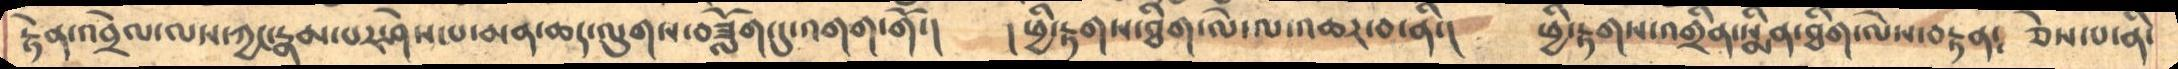རྟེན་འབྲེལ་ལས་ཀྱང་རྣམ་པར་ཤེས་པ་མན་ཆད་ལུགས་བཟློག་དུ་འགག་གོ་།    །ཕྱི་རྟགས་ཐིག་ལེ་ལ་འཆར་བ་ནི་།   ཕྱི་རྟགས་འགྲིན་སྨིན་ཐིག་ལེས་བརྟན༴   ཅེས་པ་ནི་
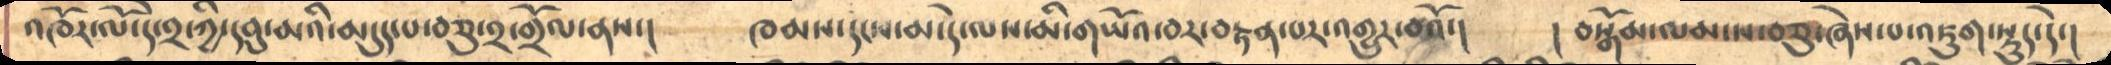འཁོར་ལོ་དེ་༢་ཀྱི་དབུ་མའི་མདུད་པ་བཅུ་༢་གྲོལ་ནས་།     ཁམས་དངས་མ་དེ་ལས་མི་གཡོའ་བར་བརྟན་པར་འགྱུར་བའོ་།    ། བསྒོམ་ལམ་ས་བཅུ་ཞེས་པ་འཇུག་སྡུད་དེ་།
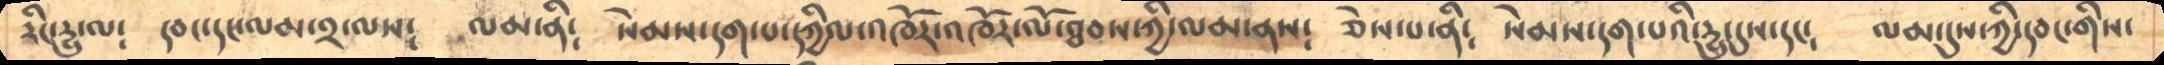རིང་དྱུ་ལ༴   དབང་དང་ལམ་༢་ལས༴   ལམ་ནི༴   སེམས་དག་པ་དཀྱིལ་འཁོར་འཁོར་ལོ་ཐབས་ཀྱི་ལམ་ནས༴   ཅེས་པ་ནི༴   སེམས་དག་པའི་དྱུ་དུས་དང༴    ལམ་དུས་ཀྱི་དབང་གིས་
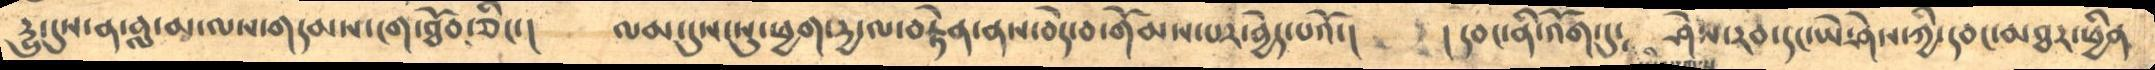དྱུ་དུས་ན་བླ་མ་ལས་གདམས་ངག་ཐོབ་ཅིང་།    ལམ་དུས་སུ་ཕྱག་དྱ་ལ་བརྟེན་ནས་བདེ་བ་གོམས་པར་བྱེད་པའོ་།    ། དབང་ནི་འོག་དུ༴   ཤེས་རབ་དང་ཡེ་ཤེས་ཀྱི་དབང་མཐར་ཕྱིན
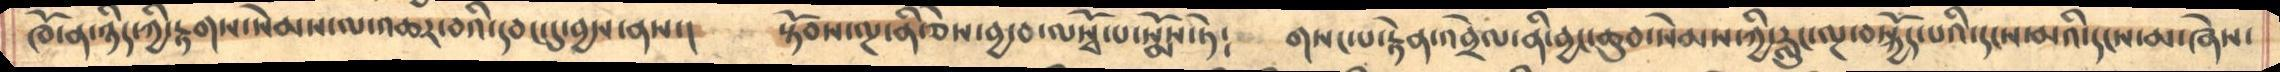ཁོ་ན་ཉིད་ཀྱི་རྟགས་སེམས་ལ་འཆར་བའི་དབང་དུ་བྱས་ནས་།    སྟོབས་ལྔ་ནི་ཅེས་བྱ་བ་ལསྭོ་པ་སྨོས་ཏེ༴   གསང་པ་རྟེན་འབྲེལ་ནི་བྱང་ཆུབ་སེམས་ཀྱི་རླུང་ལྔ་བསྐྱོད་པའི་དངས་མའི་དངས་མ་ཞེས་
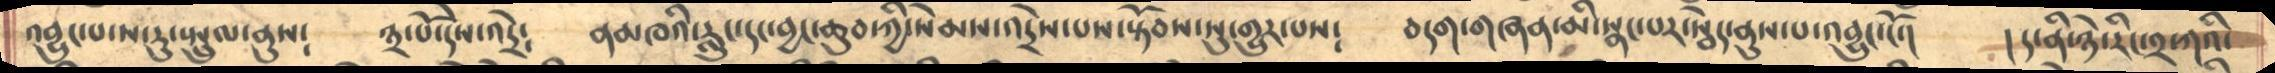འབྱུང་པ་ས་རུ་སྤྲུལ་ནུས༴    ༣་པོ་དེས་འདྲེ༴    ནམཁའི་རླུང་དང་བྱང་ཆུབ་ཀྱི་སེམས་འདྲེས་པས་སྟོབས་སུ་གྱུར་པས༴   བདག་གཞན་མི་སྣང་པར་སྦེད་ནུས་པ་འབྱུང་ངོ་།   །ད་ནི་ཉེ་རིང་༢་ཀའི་
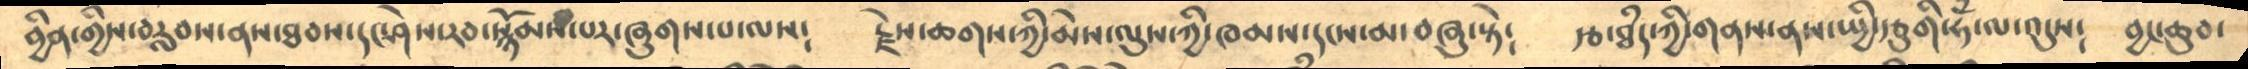བྱིན་གྱིས་བརླབས་ནས་ཐབས་དང་ཤེས་རབ་སྙོམས་པར་ཞུགས་པ་ལས༴  རྗེས་ཆགས་ཀྱི་མེས་ལུས་ཀྱི་ཁམས་དངས་མ་བཞུ་སྟེ༴   རྩ་ཐྃད་ཀྱི་གནས་ནས་སྤྱི་དཅུགི་ཧྃ་ལ་འདུས༴   བྱང་ཆུབ་
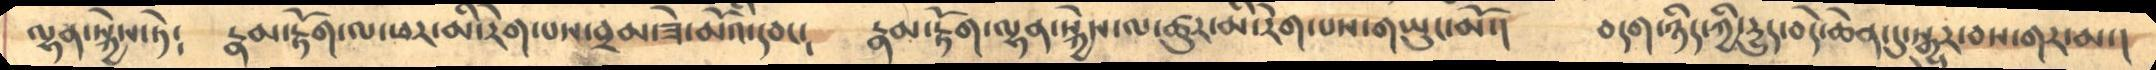ལྷན་སྐྱེས་ཏེ༴   རྣམ་རྟོག་ལ་ཕར་མི་རེག་པས་བྲམ་ཟེ་མོའི་དབང༴   རྣམ་རྟོག་ལྷན་སྐྱེས་ལ་ཚུར་མི་རེག་པས་གཡུང་མོ་།   བདག་ཉིད་ཀྱི་དྱུད་བདེ་ཆེན་དུ་སྒྱུར་བས་གར་མ་།
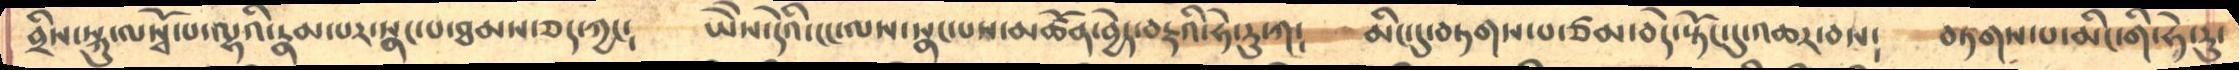བྲིས་སྐུ་ལསྭོ་པ་ལྷའི་རྣམ་པར་སྣང་པ་ཐམས་ཅད་ཀྱང༴    ཡེེས་དེའི་ངང་ལས་སྣང་པས་མཚོན་བྱེད་བརྡའི་ཧེ་རུ་ཀ༴    མིང་དུ་བཏགས་པ་ཙམ་བདེ་སྟོང་དུ་འཆར་བས༴    བཏག་པ་མིང་གི་ཧེ་རུ་
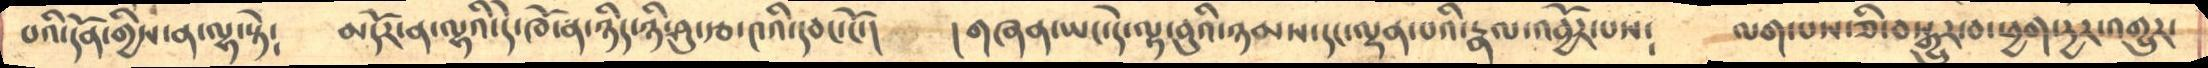བའི་དོན་གྱིས་ན་ལྷ་སྟེ༴    མདོར་ན་ལྷའི་དེ་ཁོ་ན་ཉིད་ཉི་ཤུ་རྩ་༤འི་དབང་ངོ་།   །གཞན་ཡང་དེ་བུའི་ཉམས་དང་ལྡན་པའི་རྣལ་འབྱོར་པས༴    ལག་པས་ཅི་བསྒྱུར་བ་ཕྱག་དྱར་འགྱུར་
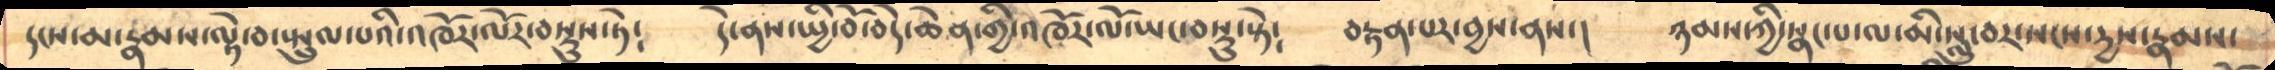དངས་མ་རྣམས་ལྟེ་བ་སྤྲུལ་པའི་འཁོར་ལོར་བསྡུས་ཏེ༴    དེ་ནས་སྤྱི་བོ་བདེ་ཆེན་གྱི་འཁོར་ལོ་ཡང་བསྡུ་སྟེ༴   བརྟན་པར་བྱས་ནས་༴  ཉམས་ཀྱི་སྣང་པ་ལ་མི་སླུ་བར་སངས་དྱས་རྣམས་
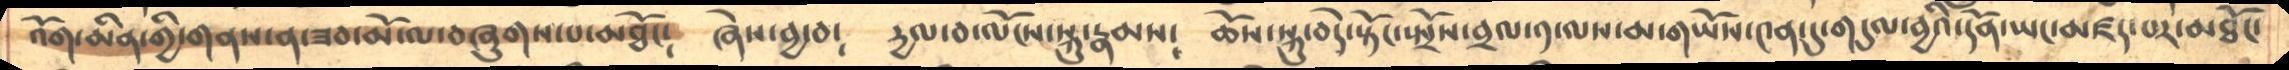འོག་མིན་གྱི་གནས་ན་ཟབ་མོ་ལ་བཞུགས་པ་མཐོང༴   ཞེས་བྱ་བ༴   དྱལ་བ་ལོངས་སྐུ་རྣམས༴   ཆོས་སྐུ་བདེ་སྟོང་སྤྲོས་བྲལ་༡་ལས་མ་གཡོས་༤ན་དུ་གདུལ་བྱའི་དོན་ཡང་མཛད་པར་མཐོང་
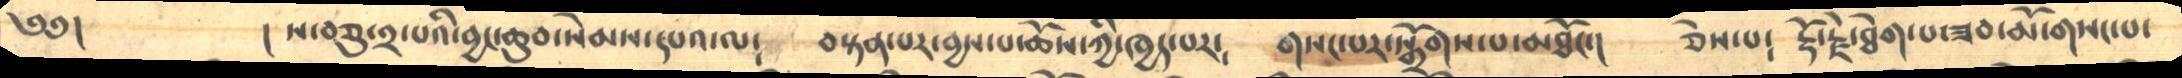༄༅།          ། ས་བཅུ་༢་པའི་བྱང་ཆུབ་སེམས་དཔའ་ལ༴    བསྟན་པར་བྱས་པ་ཆོས་ཀྱི་ཁྱད་པར༴   གསང་པར་སྒྲོགས་པ་མཐོང་།   ཅེས་པ༴   རྡོ་རྗེ་ཐེག་པ་ཟབ་མོ་གསང་པ་
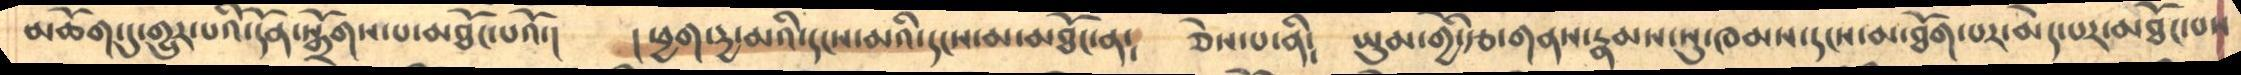མཆོག་དུ་གྱུར་པའི་དོན་སྒྲོགས་པ་མཐོང་པའོ་།    ། ཕྱག་དྱ་མའི་དངས་མའི་དངས་མ་མཐོང་ན༴   ཅེས་པ་ནི༴   ཡུམ་གྱི་རྩ་གནས་རྣམས་སུ་ཁམས་དངས་མ་ཐོག་པར་མེད་པར་མཐོང་པས
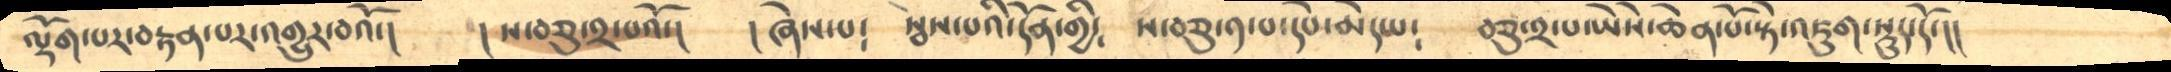ལྡོག་པར་བརྟན་པར་འགྱུར་བའོ་།   ། ས་བཅུ་༢་པའོ་།   ། ཞེས་པ༴    སྦས་པའི་དོན་གྱི༴   ས་བཅུ་༡་པ་དཔེ་མེད་པ༴   བཅུ་༢་པ་ཡཻས་ཆེན་པོ་སྟེ་འཇུག་སྡུད་དོ་།།
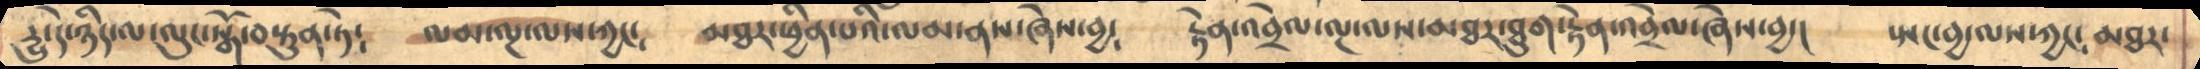དྱུ་དེ་ཉིད་ལ་ལུང་སྒོ་བསྟུན་ཏེ༴    ལམ་ལྔ་ལས་ཀྱང༴   མཐར་ཕྱིན་པའི་ལམ་ནས་ཞེས་བྱ༴    རྟེན་འབྲེལ་ལྔ་ལས་མཐར་ཐུག་རྟེན་འབྲེལ་ཞེས་བྱ་།   སྤང་བྱ་ལས་ཀྱང༴  མཐར་
